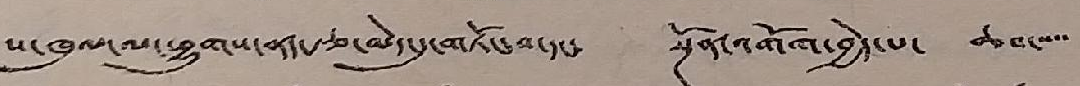ས་ཁུལ་ལ་ཕྱུགས་ནད་རྩ་མེད་དུ་གཏོང་བ་དང་ སྔོན་འགོག་བྱེད་པ་ ཆབ་་་་
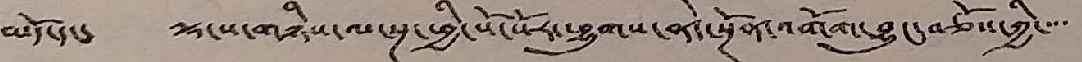མདོ་དང་ ལྷ་ས་གཉིས་ལ་སྔ་ཕྱི་སོ་སོར་ཕྱུགས་ནད་སྔོན་འགོག་བྱུང་བཅོས་ཀྱི་་་་
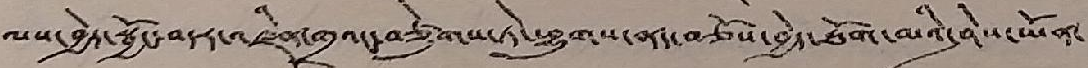ལས་བྱེད་སྦྱོང་བདར་འཛིན་གྲའང་བཙུགས་ཏེ་ཕྱུགས་ནད་བཅོས་བྱེད་ཐོག་མའི་ཤེས་ཡོན་
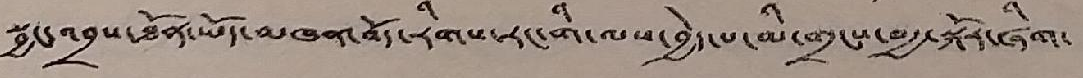སྦྱང་འབྲས་ཐོན་ཡོད་མཁན་བོད་རིགས་རང་གི་ལས་བྱེད་པ་མི་གྲངས་བརྒྱ་སྐོར་ཞིག་
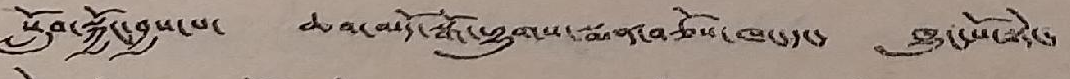སློབ་སྦྱོང་བྱས་པ་ ཆབ་མདོ་སྒོ་ཕྱུགས་སྨན་བཅོས་ཁང་དང་ ཁྱུང་པོ་སྟེང་
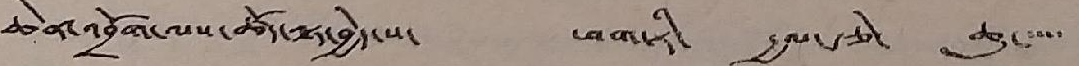ཆེན་འབྲོག་ལས་ཚོད་ལྟ་བྱེད་ས་ ཕག་རི་ རྒྱལ་རྩེ་ ཆུ་་་་་
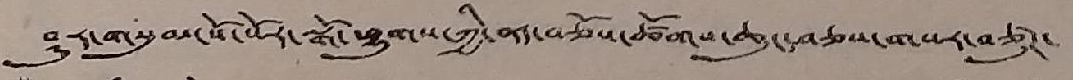ཤུར་གསུམ་སོ་སོར་སྒོ་ཕྱུགས་ཀྱི་ནད་བཅོས་ཚོགས་ཆུང་བཅས་གསར་བཙུཊ་
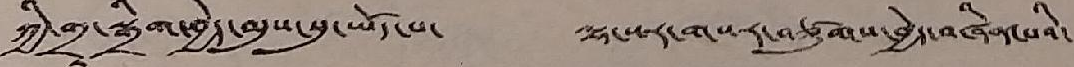ཀྱི་གྲྭ་སྒྲིག་བྱེད་མུས་སུ་ཡོད་པ་ ལྷ་སར་གསར་བཙུགས་བྱེད་བཞིན་པའི་
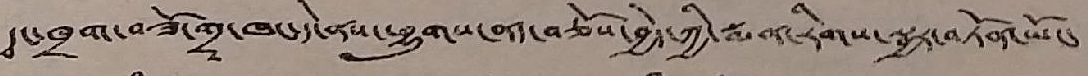དྭང་ཁྲག་བཟོ་གྲྭ་ཁང་དེ་ནས་ཕྱུགས་ནད་བཅོས་བྱེད་ཀྱི་སྨན་རིགས་སྦྱར་བཏོན་ཡོང་
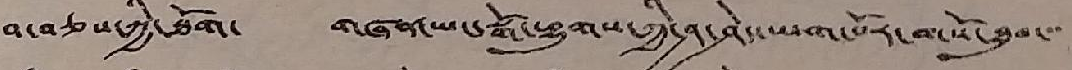བ་བཅས་ཀྱི་ཐོག་ གཞན་ཡང་སྒོ་ཕྱུགས་ཀྱི་ཤ་ཤེད་ཡག་པོར་གསོ་ཐུབ་་་
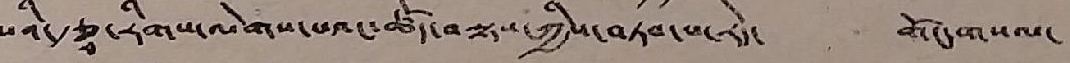པའི་རྩྭ་རིགས་ལེགས་པའང་ཚོད་བལྟས་ཀྱིས་བཏབ་པ་རེད་ གོང་གསལ་
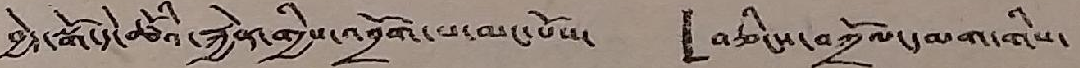བྱེད་སྒོ་དེ་ཚོའི་རྐྱེན་གྱིས་འབྲོག་པ་མང་པོས་ 「བཅིངས་བཀྲོལ་དམག་གིས་
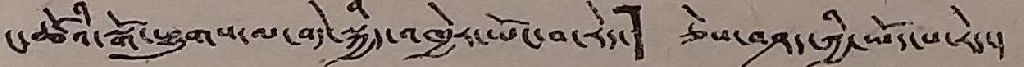ང་ཚོ་སྒོ་ཕྱུགས་ལ་བདེ་སྐྱིད་ཁྱེར་ཡོང་བ་རེད་」 ཅེས་བཤད་ཀྱི་ཡོད་པ་རེད་
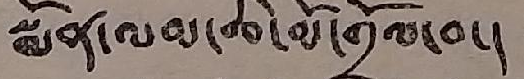སྨོན་ལམ་ཆེ་མོ་གྲོལ་བ།
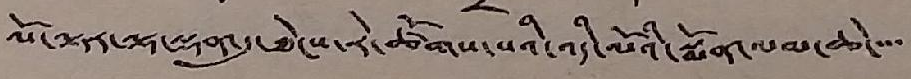ལོ་ལྟར་ལྷ་ལྡན་དུ་ཐེངས་རེ་ཚོགས་པའི་འདི་ལོའི་སྨོན་ལམ་ཆེ་་་་
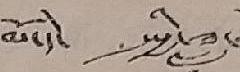མོ་དེ་སྤྱི་ཟླ་
